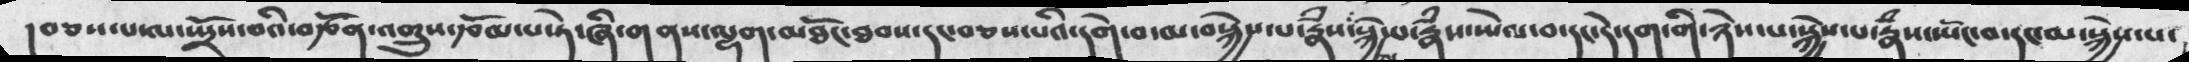།བཅས་པ་ལ་སྤྲོས་བའི་བརྩོན་འགྲུས་རྩོམ་པ་ཏེ་ཞི་གནས་ལྷག་མཐོང་ཐབས་དང་བཅས་པའི་དགེ་བ་ལ་བསྐྱེས་པ་རྣཾས་སྐྱེས་པ་རྣཾས་སྤེལ་བ་དང་དེ་དག་གི་ཉེས་པ་སྐྱེས་པ་རྣཾས་སྤོང་བ་དང་མ་སྐྱེས་པ་
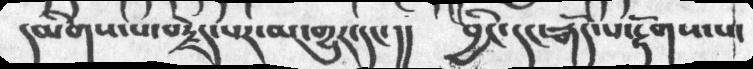དམིགས་པ་བརྗེད་པར་མ་གྱུར་དང་།།   བྱིང་དང་རྒོད་པ་རྟོགས་པ་
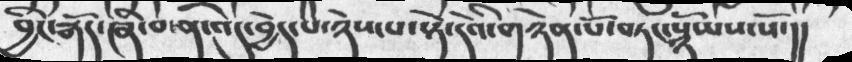བྱིང་རྒོད་ཞི་བ་ན་འདུ་བྱེད་པ་ཉེས་པ་སྟེ་དེའི་གཉེན་པོ་བཏང་སྙོམས་སོ་།།
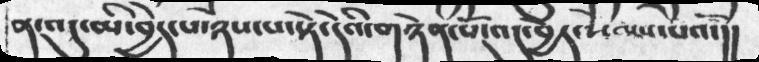ན་འདུ་མི་བྱེད་པ་ཉེས་པ་སྟེ་དེའི་གཉེན་པོ་འདུ་བྱེད་སེམས་པའོ་།།
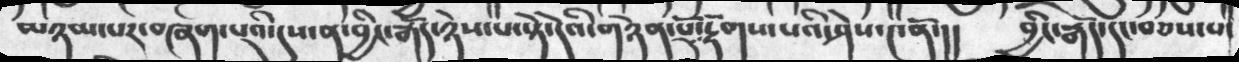མཉམ་པར་བཞག་པའི་དུས་ན་བྱིང་རྒོད་ཉེས་པ་སྟེ་དེའི་གཉེན་པོར་རྟོགས་པའི་ཤེས་༤ན་ནོ་།།  བྱིང་རྒོད་དང་བཅས་
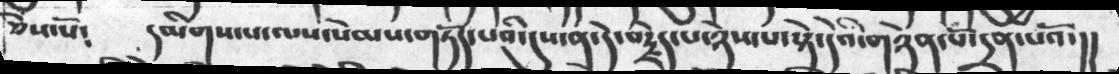ཅེསོ༴   དམིགས་པ་ལས་སེམས་གཏོད་པའི་དུས་ན་དེ་བརྗེད་པ་ཉེས་པ་སྟེ་དེའི་གཉེན་པོ་དྲན་པའོ་།།
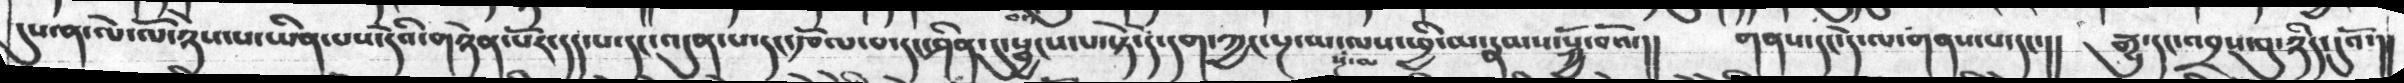དུས་ན་ལེ་ལོ་ཉེས་པ་ཡིན་པས་དེའི་གཉེན་པོར་དད་པ་དང་འདུན་པ་དང་རྩོལ་བ་དང་ཤིན་དུ་སྦྱོངས་པ་སྟེ་དེ་དག་ཀྱང་སྔ་མ་སྔ་མ་ལས་ཕྱི་མ་རྣམས་སྐྱོ་བའོ་།།  གནས་དང་དེ་ལ་གནས་པ་དང་།།  རྒྱུ་དང་འབྲས་བུ་ཉིད་དུའོ་།།
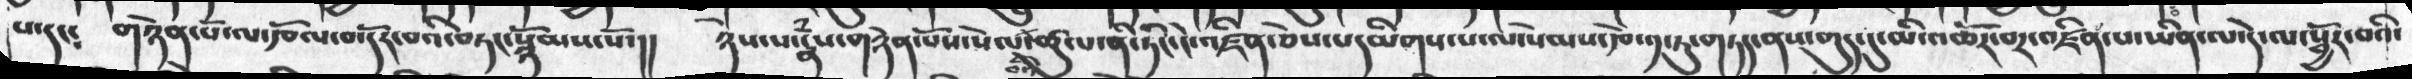པ་དང༴  གཉེན་པོ་ལ་རྩོལ་བ་དོར་བའི་བཏང་སྙོམས་སོ་།།  ཉེས་པ་རྣཾས་གཉེན་པོས་སེལ་བའི་ཚུལ་ནི་ཏིང་ངེ་འཛིན་ཅེས་པ་དམིགས་པ་ལ་སེམས་རྩེ་༡་ཏུ་གཏད་ནས་གུད་མི་འཆོར་བར་འཛིན་པ་ཡིན་ལ་དེ་ལ་སྦྱོར་བའི་
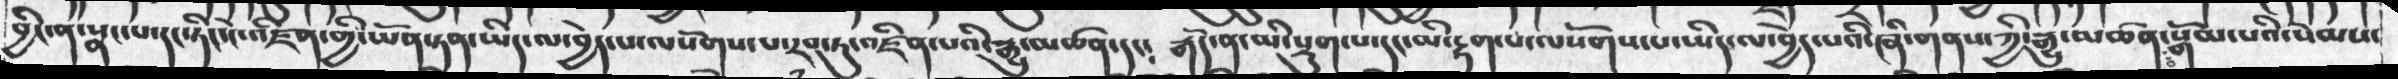བྱིང་ན་སྣང་པ་དང་ཏིང་ངེ་འཛིན་གྱི་ཡོན་ཏན་ཡིད་ལ་བྱེད་པ་ལསོགས་པ་རབ་ཏུ་འཛིན་པའི་རྒྱུ་མཚན་དང༴   རྒོད་ན་མི་སྡུག་པ་དང་མི་རྟག་པ་ལསོགས་པ་ཡིད་ལ་བྱེད་པའི་ཞི་གནས་ཀྱི་རྒྱུ་མཚན་ཅི་སྒོམ་པའི་སེམས་
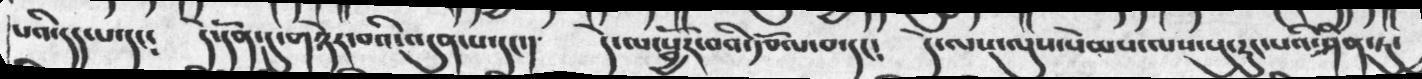པའི་དད་པ་དང༴   དེ་དོན་དུ་གཉེར་བའི་འདུན་པ་དང་།    དེ་ལ་སྦྱོར་བའི་རྩོལ་བ་དང༴   དེ་ལས་ལུས་སེམས་ལས་སུ་རུང་པའི་ཤིན་ཏུ་
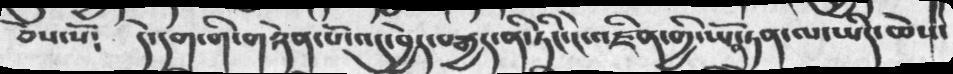ཅེས་སོ༴  དེ་དག་གི་གཉེན་པོ་འདུ་བྱེད་བརྒྱད་ནི་ཏིང་ངེ་འཛིན་གྱི་ཡོན་ཏན་ལ་ཡིད་ཆེས་
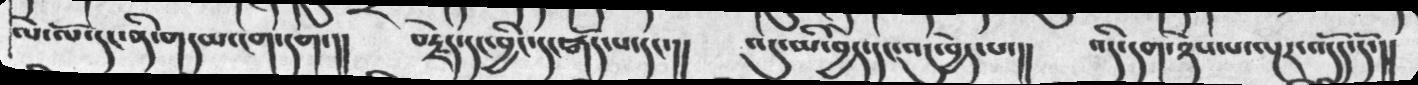ལེ་ལོ་དང་ནི་གདམ་ངག་དག་།།    བརྗེད་དང་བྱིང་དང་རྒོད་པ་དང་།།   འདུ་མི་བྱེད་དང་འདུ་བྱེད་པ་།།    འདི་དག་ཉེས་པ་ལྔར་འདོད་དོ་།།
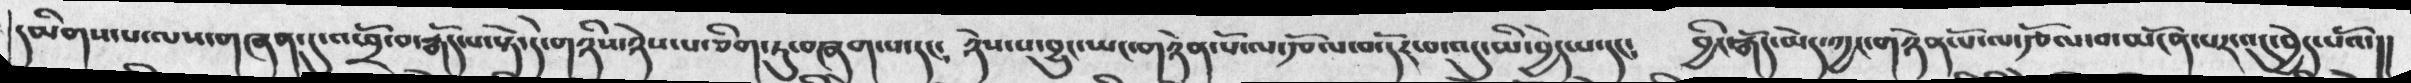དམིགས་པ་ལས་གཞན་དུ་འཕྲོ་བ་རྒོད་པ་སྟེ་དེ་གཉིས་ཉེས་པ་ཅིག་ཏུ་བཞག་པ་དང༴  ཉེས་པ་བྱུང་ཡང་གཉེན་པོ་ལ་རྩོལ་བ་དོར་བ་འདུ་མི་བྱེད་པ་དང༴   བྱིང་རྒོད་མེད་ཀྱང་གཉེན་པོ་ལ་རྩོལ་བ་མངོན་པར་འདུ་བྱེད་པའོ་།།
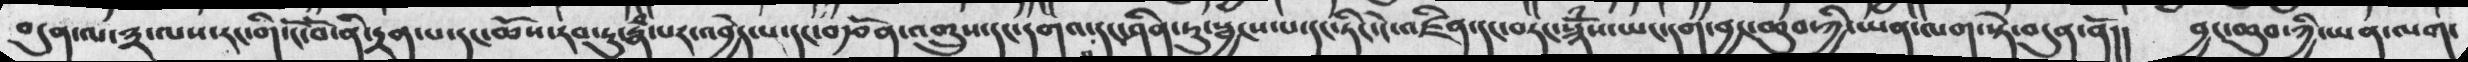བདུན་ལ་༣་ལས་རང་གི་ངོ་བོ་ནི་དྲན་པ་དང་ཆོས་རབ་ཏུ་རྣྃ་པར་འབྱེདཔ་དང་བརྩོན་འགྲུས་དང་དགའ་བ་དང་ཤིན་ཏུ་སྦྱངས་པ་དང་ཏིང་ངེ་འཛིན་དང་བཏང་སྙོཾས་ཡང་དག་བྱང་ཆུབ་ཀྱི་ཡན་ལག་སྟེ་བདུན་ནོ།།  བྱང་ཆུབ་ཀྱི་ཡན་ལག་
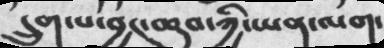དྲུག་པ་བྱང་ཆུབ་ཀྱི་ཡན་ལག་
